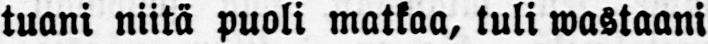tuani niitä puoli matkaa, tuli wustaani
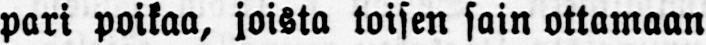pari poikaa, joista toisen sain ottamaan
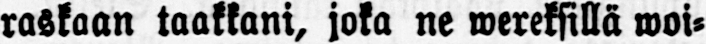raskaan taakkani, joka ne wereksillä woi-
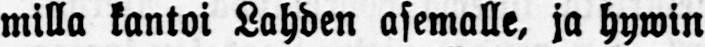milla kantoi Lahden asemalle, ja hywin
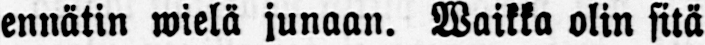ennätin wielä junaan. Waikka olin sitä
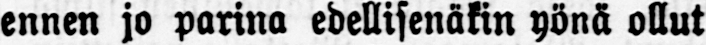ennen jo parina edellisenäkin yönä ollut
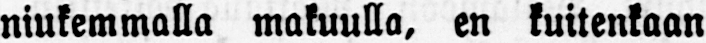niukemmalla makuulla, en kuitenkaan
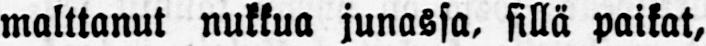malttanut nukkua junassa, sillä paikat,
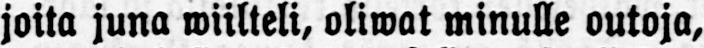joita juna wiilteli, oliwat minulle outoja,
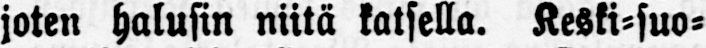joten halusin niitä katsella. Keski-suo-
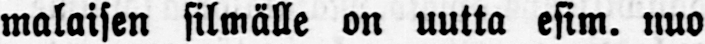malaisen silmälle on uutta esim. nuo
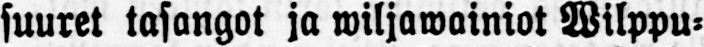suuret tasangot ja wiljawainiot Wilppu-
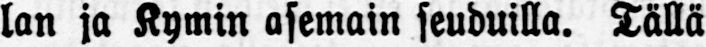lan ja Kymin asemain seuduilla. Tällä
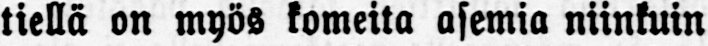tiellä on myös komeita asemia niinkuin
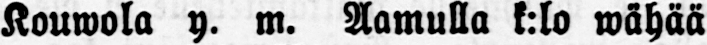Kouwola y. m. Aamulla k:lo wähää
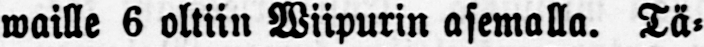waille 6 oltiin Wiipurin asemalla. Tä-
